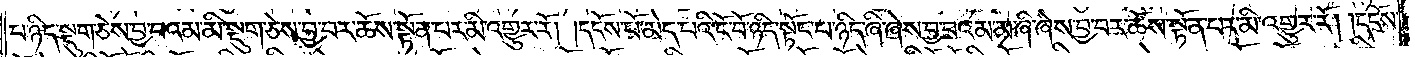པ་ཉིད་སྡུག་ཅེས་བྱ་བའམ་མི་སྡུག་ཅེས་བྱ་བར་ཆོས་སྟོན་པར་མི་འགྱུར་རོ། །དངོས་པོ་མེད་པའི་ངོ་བོ་ཉིད་སྟོང་པ་ཉིད་ཞི་ཞེས་བྱ་བའམ་མ་ཞི་ཞེས་བྱ་བར་ཆོས་སྟོན་པར་མི་འགྱུར་རོ། །དངོས་
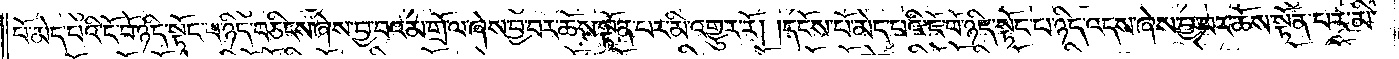པོ་མེད་པའི་ངོ་བོ་ཉིད་སྟོང་པ་ཉིད་བཅིངས་ཞེས་བྱ་བའམ་གྲོལ་ཞེས་བྱ་བར་ཆོས་སྟོན་པར་མི་འགྱུར་རོ། །དངོས་པོ་མེད་པའི་ངོ་བོ་ཉིད་སྟོང་པ་ཉིད་འདས་ཞེས་བྱ་བར་ཆོས་སྟོན་པར་མི་
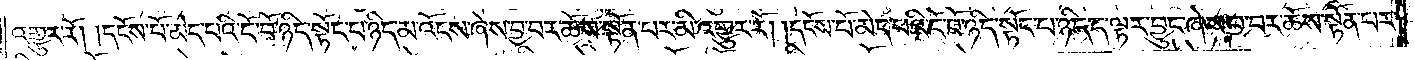འགྱུར་རོ། །དངོས་པོ་མེད་པའི་ངོ་བོ་ཉིད་སྟོང་པ་ཉིད་མ་འོངས་ཞེས་བྱ་བར་ཆོས་སྟོན་པར་མི་འགྱུར་རོ། །དངོས་པོ་མེད་པའི་ངོ་བོ་ཉིད་སྟོང་པ་ཉིད་ད་ལྟར་བྱུང་ཞེས་བྱ་བར་ཆོས་སྟོན་པར་
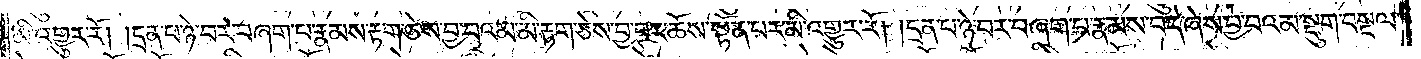མི་འགྱུར་རོ། །དྲན་པ་ཉེ་བར་བཞག་པ་རྣམས་རྟག་ཅེས་བྱ་བའམ་མི་རྟག་ཅེས་བྱ་བར་ཆོས་སྟོན་པར་མི་འགྱུར་རོ། །དྲན་པ་ཉེ་བར་བཞག་པ་རྣམས་བདེ་ཞེས་བྱ་བའམ་སྡུག་བསྔལ་
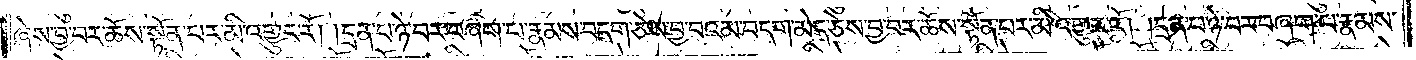ཞེས་བྱ་བར་ཆོས་སྟོན་པར་མི་འགྱུར་རོ། །དྲན་པ་ཉེ་བར་བཞག་པ་རྣམས་བདག་ཅེས་བྱ་བའམ་བདག་མེད་ཅེས་བྱ་བར་ཆོས་སྟོན་པར་མི་འགྱུར་རོ། །དྲན་པ་ཉེ་བར་བཞག་པ་རྣམས་
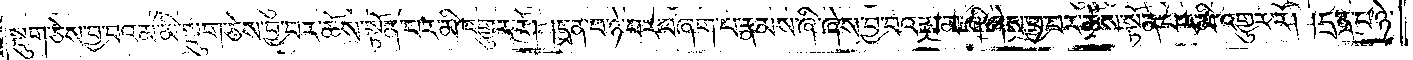སྡུག་ཅེས་བྱ་བའམ་མི་སྡུག་ཅེས་བྱ་བར་ཆོས་སྟོན་པར་མི་འགྱུར་རོ། །དྲན་པ་ཉེ་བར་བཞག་པ་རྣམས་ཞི་ཞེས་བྱ་བའམ་མ་ཞི་ཞེས་བྱ་བར་ཆོས་སྟོན་པར་མི་འགྱུར་རོ། །དྲན་པ་ཉེ་
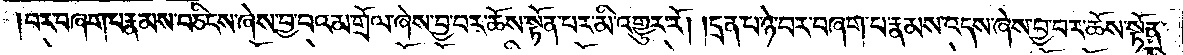བར་བཞག་པ་རྣམས་བཅིངས་ཞེས་བྱ་བའམ་གྲོལ་ཞེས་བྱ་བར་ཆོས་སྟོན་པར་མི་འགྱུར་རོ། །དྲན་པ་ཉེ་བར་བཞག་པ་རྣམས་འདས་ཞེས་བྱ་བར་ཆོས་སྟོན་
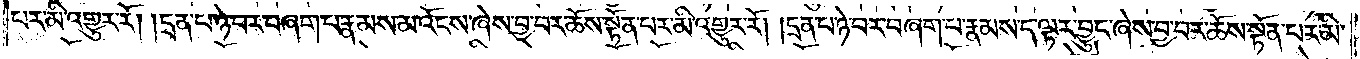པར་མི་འགྱུར་རོ། །དྲན་པ་ཉེ་བར་བཞག་པ་རྣམས་མ་འོངས་ཞེས་བྱ་བར་ཆོས་སྟོན་པར་མི་འགྱུར་རོ། །དྲན་པ་ཉེ་བར་བཞག་པ་རྣམས་ད་ལྟར་བྱུང་ཞེས་བྱ་བར་ཆོས་སྟོན་པར་མི་
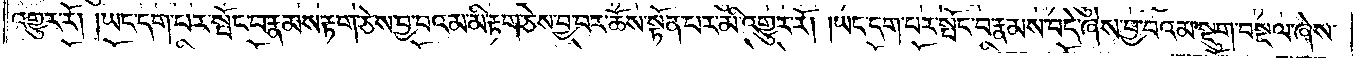འགྱུར་རོ། །ཡང་དག་པར་སྤོང་བ་རྣམས་རྟག་ཅེས་བྱ་བའམ་མི་རྟག་ཅེས་བྱ་བར་ཆོས་སྟོན་པར་མི་འགྱུར་རོ། །ཡང་དག་པར་སྤོང་བ་རྣམས་བདེ་ཞེས་བྱ་བའམ་སྡུག་བསྔལ་ཞེས་
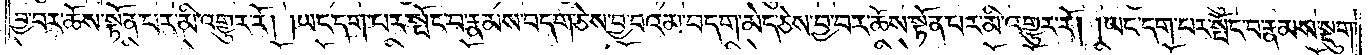བྱ་བར་ཆོས་སྟོན་པར་མི་འགྱུར་རོ། །ཡང་དག་པར་སྤོང་བ་རྣམས་བདག་ཅེས་བྱ་བའམ་བདག་མེད་ཅེས་བྱ་བར་ཆོས་སྟོན་པར་མི་འགྱུར་རོ། །ཡང་དག་པར་སྤོང་བ་རྣམས་སྡུག་
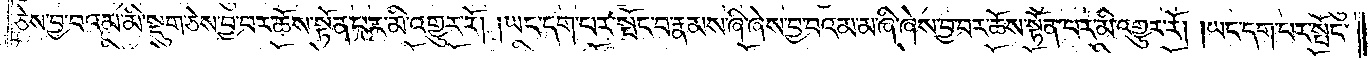ཅེས་བྱ་བའམ་མི་སྡུག་ཅེས་བྱ་བར་ཆོས་སྟོན་པར་མི་འགྱུར་རོ། །ཡང་དག་པར་སྤོང་བ་རྣམས་ཞི་ཞེས་བྱ་བའམ་མ་ཞི་ཞེས་བྱ་བར་ཆོས་སྟོན་པར་མི་འགྱུར་རོ། །ཡང་དག་པར་སྤོང་
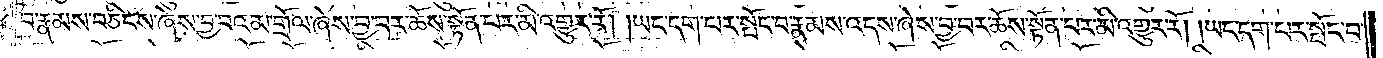བ་རྣམས་བཅིངས་ཞེས་བྱ་བའམ་གྲོལ་ཞེས་བྱ་བར་ཆོས་སྟོན་པར་མི་འགྱུར་རོ། །ཡང་དག་པར་སྤོང་བ་རྣམས་འདས་ཞེས་བྱ་བར་ཆོས་སྟོན་པར་མི་འགྱུར་རོ། །ཡང་དག་པར་སྤོང་བ་
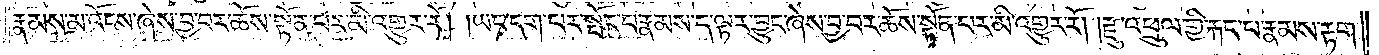རྣམས་མ་འོངས་ཞེས་བྱ་བར་ཆོས་སྟོན་པར་མི་འགྱུར་རོ། །ཡང་དག་པར་སྤོང་བ་རྣམས་ད་ལྟར་བྱུང་ཞེས་བྱ་བར་ཆོས་སྟོན་པར་མི་འགྱུར་རོ། །རྫུ་འཕྲུལ་གྱི་རྐང་པ་རྣམས་རྟག་
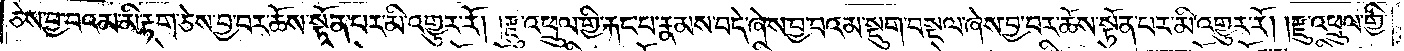ཅེས་བྱ་བའམ་མི་རྟག་ཅེས་བྱ་བར་ཆོས་སྟོན་པར་མི་འགྱུར་རོ། །རྫུ་འཕྲུལ་གྱི་རྐང་པ་རྣམས་བདེ་ཞེས་བྱ་བའམ་སྡུག་བསྔལ་ཞེས་བྱ་བར་ཆོས་སྟོན་པར་མི་འགྱུར་རོ། །རྫུ་འཕྲུལ་གྱི་
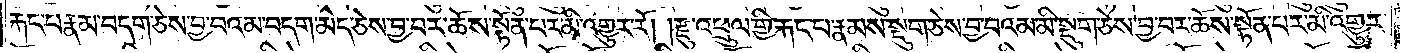རྐང་པ་རྣམས་བདག་ཅེས་བྱ་བའམ་བདག་མེད་ཅེས་བྱ་བར་ཆོས་སྟོན་པར་མི་འགྱུར་རོ། །རྫུ་འཕྲུལ་གྱི་རྐང་པ་རྣམས་སྡུག་ཅེས་བྱ་བའམ་མི་སྡུག་ཅེས་བྱ་བར་ཆོས་སྟོན་པར་མི་འགྱུར་
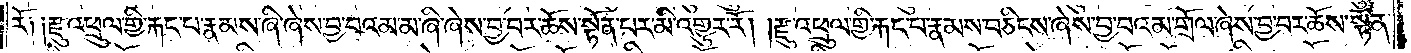རོ༑ ༑རྫུ་འཕྲུལ་གྱི་རྐང་པ་རྣམས་ཞི་ཞེས་བྱ་བའམ་མ་ཞི་ཞེས་བྱ་བར་ཆོས་སྟོན་པར་མི་འགྱུར་རོ། །རྫུ་འཕྲུལ་གྱི་རྐང་པ་རྣམས་བཅིངས་ཞེས་བྱ་བའམ་གྲོལ་ཞེས་བྱ་བར་ཆོས་སྟོན་
